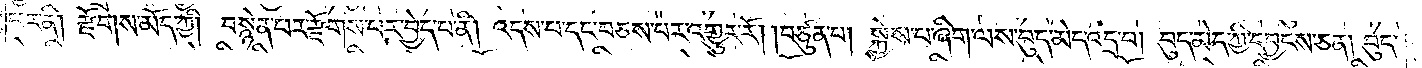པར་ནི། རྫོགས་མོད་ཀྱི། བསྙེན་པར་རྫོགས་པར་བྱེད་པ་ནི། འདས་པ་དང་བཅས་པར་འགྱུར་རོ། །བཙུན་པ། སྐྱེས་པ་ཞིག་ལས་བུད་མེད་འདྲ་བ། བུད་མེད་ཀྱི་དབྱངས་ཅན། བུད་
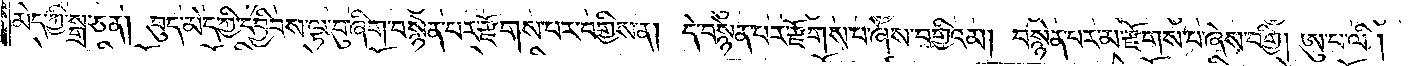མེད་ཀྱི་སྒྲ་ཅན། བུད་མེད་ཀྱི་དབྱིབས་ལྟ་བུ་ཞིག་བསྙེན་པར་རྫོགས་པར་བགྱིས་ན། དེ་བསྙེན་པར་རྫོགས་པ་ཞེས་བགྱིའམ། བསྙེན་པར་མ་རྫོགས་པ་ཞེས་བགྱི། ཨུ་པ་ལི།
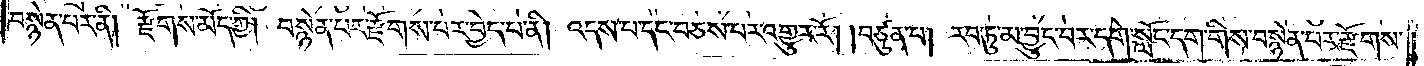བསྙེན་པར་ནི། རྫོགས་མོད་ཀྱི། བསྙེན་པར་རྫོགས་པར་བྱེད་པ་ནི། འདས་པ་དང་བཅས་པར་འགྱུར་རོ། །བཙུན་པ། རབ་ཏུ་མ་བྱུང་བར་དགེ་སློང་དག་གིས་བསྙེན་པར་རྫོགས་
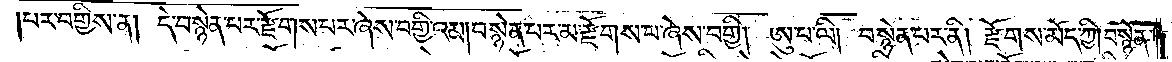པར་བགྱིས་ན། དེ་བསྙེན་པར་རྫོགས་པར་ཞེས་བགྱིའམ། བསྙེན་པར་མ་རྫོགས་པ་ཞེས་བགྱི། ཨུ་པ་ལི། བསྙེན་པར་ནི། རྫོགས་མོད་ཀྱི། བསྙེན་
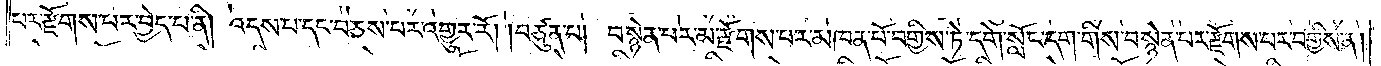པར་རྫོགས་པར་བྱེད་པ་ནི། འདས་པ་དང་བཅས་པར་འགྱུར་རོ། །བཙུན་པ། བསྙེན་པར་མ་རྫོགས་པར་མཁན་པོ་བགྱིས་ཏེ་དགེ་སློང་དག་གིས་བསྙེན་པར་རྫོགས་པར་བགྱིས་ན།
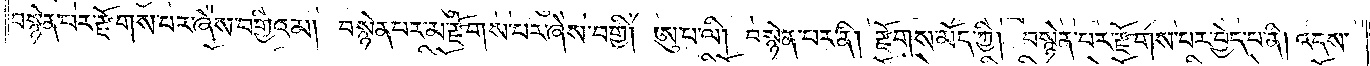བསྙེན་པར་རྫོགས་པར་ཞེས་བགྱིའམ། བསྙེན་པར་མ་རྫོགས་པར་ཞེས་བགྱི། ཨུ་པ་ལི། བསྙེན་པར་ནི། རྫོགས་མོད་ཀྱི། བསྙེན་པར་རྫོགས་པར་བྱེད་པ་ནི། འདས་
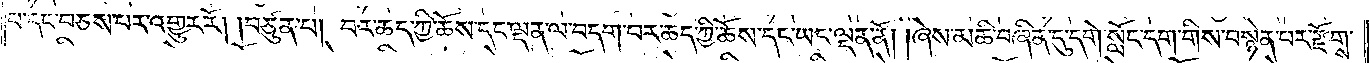པ་དང་བཅས་པར་འགྱུར་རོ། །བཙུན་པ། བར་ཆད་ཀྱི་ཆོས་དང་ལྡན་ལ་བདག་བར་ཆད་ཀྱི་ཆོས་དང་ཡང་ལྡན་ནོ། །ཞེས་མཆི་བཞིན་དུ་དགེ་སློང་དག་གིས་བསྙེན་པར་རྫོགས་
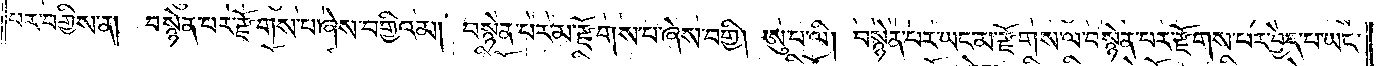པར་བགྱིས་ན། བསྙེན་པར་རྫོགས་པ་ཞེས་བགྱིའམ། བསྙེན་པར་མ་རྫོགས་པ་ཞེས་བགྱི། ཨུ་པ་ལི། བསྙེན་པར་ཡང་མ་རྫོགས་ལ་བསྙེན་པར་རྫོགས་པར་བྱེད་པ་ཡང་
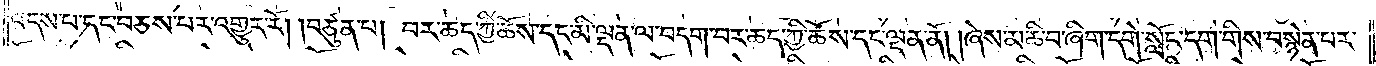འདས་པ་དང་བཅས་པར་འགྱུར་རོ། །བཙུན་པ། བར་ཆད་ཀྱི་ཆོས་དང་མི་ལྡན་ལ་བདག་བར་ཆད་ཀྱི་ཆོས་དང་ལྡན་ནོ། །ཞེས་མཆི་བ་ཞིག་དགེ་སློང་དག་གིས་བསྙེན་པར་
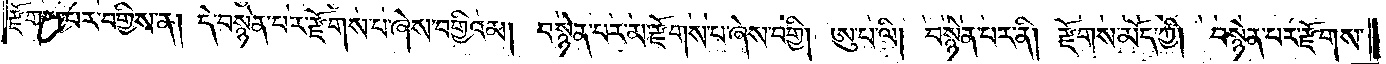རྫོགས་པར་བགྱིས་ན། དེ་བསྙེན་པར་རྫོགས་པ་ཞེས་བགྱིའམ། བསྙེན་པར་མ་རྫོགས་པ་ཞེས་བགྱི། ཨུ་པ་ལི། བསྙེན་པར་ནི། རྫོགས་མོད་ཀྱི། བསྙེན་པར་རྫོགས་
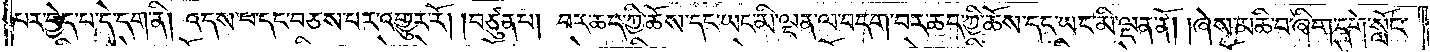པར་བྱེད་པ་དེ་དག་ནི། འདས་པ་དང་བཅས་པར་འགྱུར་རོ། །བཙུན་པ། བར་ཆད་ཀྱི་ཆོས་དང་ཡང་མི་ལྡན་ལ་བདག་བར་ཆད་ཀྱི་ཆོས་དང་ཡང་མི་ལྡན་ནོ། །ཞེས་མཆི་བ་ཞིག་དགེ་སློང་
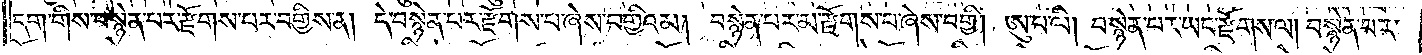དག་གིས་བསྙེན་པར་རྫོགས་པར་བགྱིས་ན། དེ་བསྙེན་པར་རྫོགས་པ་ཞེས་བགྱིའམ། བསྙེན་པར་མ་རྫོགས་པ་ཞེས་བགྱི། ཨུ་པ་ལི། བསྙེན་པར་ཡང་རྫོགས་ལ། བསྙེན་པར་
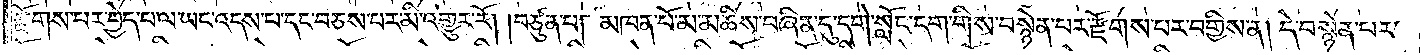རྫོགས་པར་བྱེད་པ་ལ་ཡང་འདས་པ་དང་བཅས་པར་མི་འགྱུར་རོ། །བཙུན་པ། མཁན་པོ་མ་མཆིས་བཞིན་དུ་དགེ་སློང་དག་གིས་བསྙེན་པར་རྫོགས་པར་བགྱིས་ན། དེ་བསྙེན་པར་
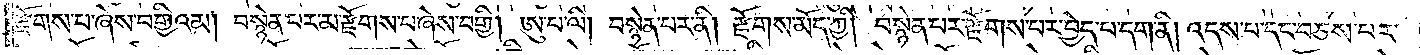རྫོགས་པ་ཞེས་བགྱིའམ། བསྙེན་པར་མ་རྫོགས་པ་ཞེས་བགྱི། ཨུ་པ་ལི། བསྙེན་པར་ནི། རྫོགས་མོད་ཀྱི། བསྙེན་པར་རྫོགས་པར་བྱེད་པ་དག་ནི། འདས་པ་དང་བཅས་པར་
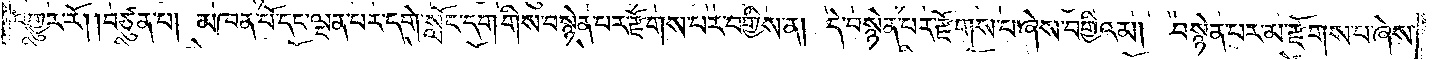འགྱུར་རོ། །བཙུན་པ། མཁན་པོ་དང་ལྡན་པར་དགེ་སློང་དག་གིས་བསྙེན་པར་རྫོགས་པར་བགྱིས་ན། དེ་བསྙེན་པར་རྫོགས་པ་ཞེས་བགྱིའམ། བསྙེན་པར་མ་རྫོགས་པ་ཞེས་
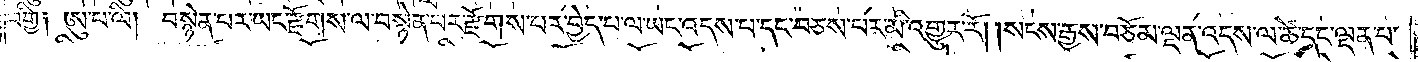བགྱི༑ ཨུ་པ་ལི། བསྙེན་པར་ཡང་རྫོགས་ལ་བསྙེན་པར་རྫོགས་པར་བྱེད་པ་ལ་ཡང་འདས་པ་དང་བཅས་པར་མི་འགྱུར་རོ། །སངས་རྒྱས་བཅོམ་ལྡན་འདས་ལ་ཚེ་དང་ལྡན་པ་
